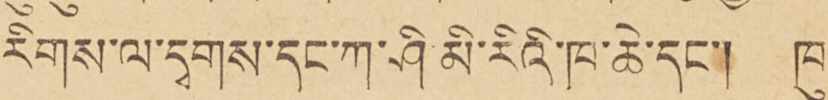རིགས་ལ་དྭགས་དང་ཀ་ཤི་མི་རིའི་ཁ་ཆེ་དང་། ཁུ་
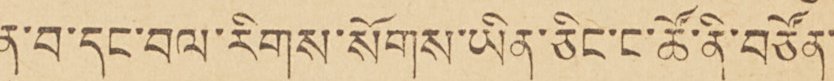ནུ་བ་དང་བལ་རིགས་སོགས་ཡིན་ཅིང་ང་ཚོ་ནི་བཙོན་
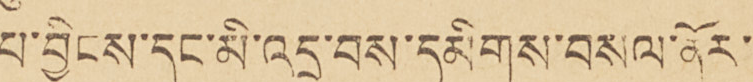པ་བྱིངས་དང་མི་འདྲ་བས་དམིགས་བསལ་ནོར་
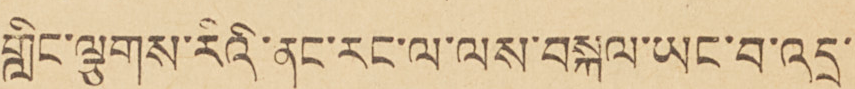གླིང་ལྕགས་རིའི་ནང་རང་ལ་ལས་བསྐུལ་ཡང་བ་འདྲ་
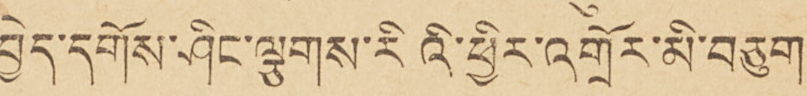བྱེད་དགོས་ཤིང་ལྕགས་རིའི་ཕྱིར་འགྲོར་མི་བཅུག
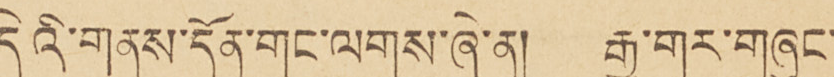དེའི་གནས་དོན་གང་ལགས་ཞེ་ན། རྒྱ་གར་གཞུང་
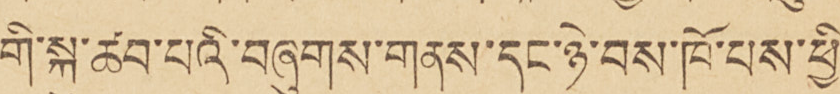གི་སྐུ་ཚབ་པའི་བཞུགས་གནས་དང་ཉེ་བས་ཁོ་པས་ཕྱི་
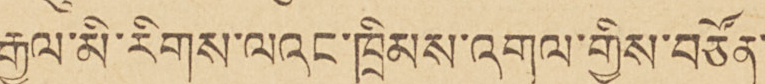རྒྱལ་མི་རིགས་ལའང་ཁྲིམས་འགལ་གྱིས་བརྩོན་
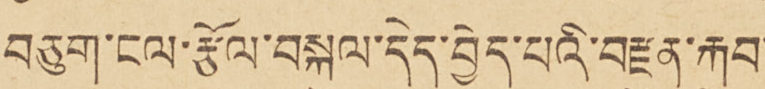བཅུག་ངལ་ཙོལ་བསྐུལ་དེད་བྱེད་པའི་བརྫུན་རྐུབ་
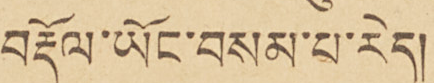བརྡོལ་ཡོང་བསམ་པ་རེད།
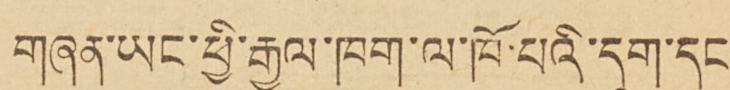གཞན་ཡང་ཕྱི་རྒྱལ་ཁག་ལ་ཁོ་པའི་དུག་དང་
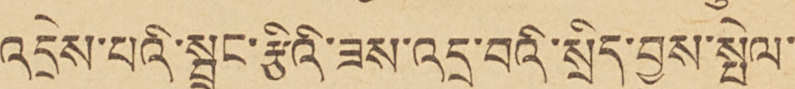འདྲེས་པའི་སྦྲང་རྩིའི་ཟས་འདྲ་བའི་སྲིད་བྱུས་སྤེལ་
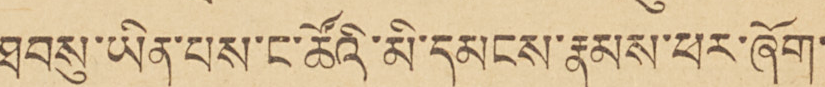ཐབསུ་ཡིན་པས་ང་ཚོའི་མི་དམངས་རྣམས་ཕར་ཞོག་
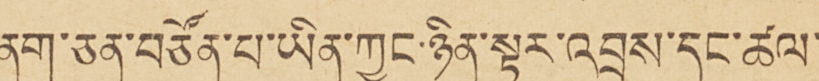ནག་ཅན་བཙོན་པ་ཡིན་ཀྱང་ཉིན་སྟར་འབྲས་དང་ཚལ་
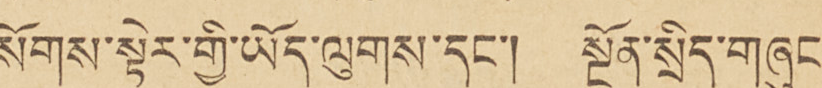སོགས་སྟེར་གྱི་ཡོད་ལུགས་དང་། སྔོན་སྲིད་གཞུང་
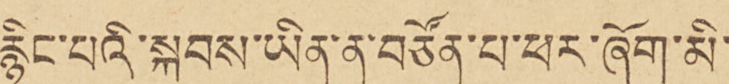རྙིང་པའི་སྐབས་ཡིན་ན་བརྩོན་པ་ཕར་ཞོག་མི་
